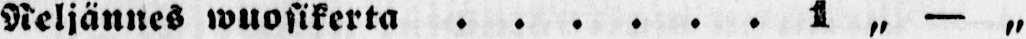Neljännes wuosikerta 1 „ — „
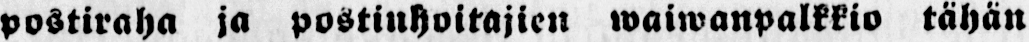postiraha ja postinhoitajien waiwanpalkkio tähän
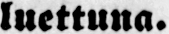luettuna.
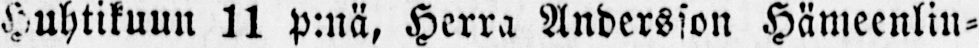Huhtikuun 11 p:nä, Herra Andersson Hämeenlin-
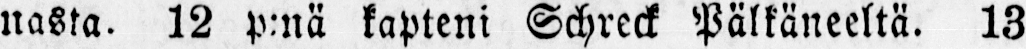nasta. 12 p:nä kapteni Schreck Pälkäneeltä. 13
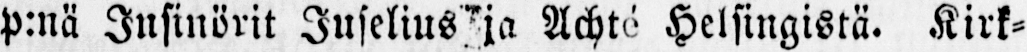p:nä Insinörit Juselius ja Achté Helsingistä. Kirk-
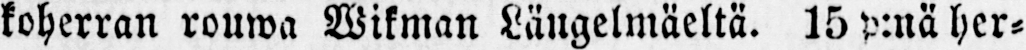koherran rouwa Wikman Längelmäeltä. 15 p:nä her-
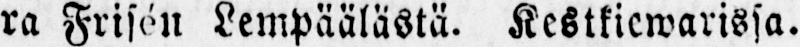ra Frisén Lempäälästä. Kestkiewarissa.
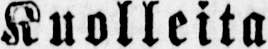Kuolleita.
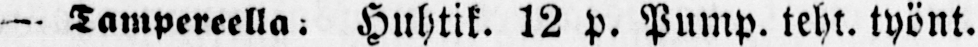— Tampereella; Huhtik. 12 p. Pump. teht. työnt.
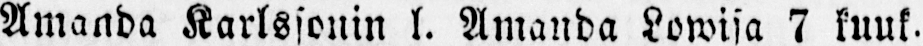Amanda Karlssonin I. Amanda Lowisa 7 kuuk.
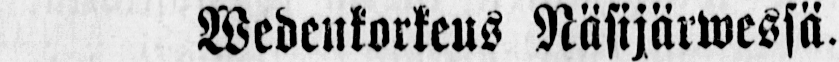Wedenkorkeus Näsijäwessä.
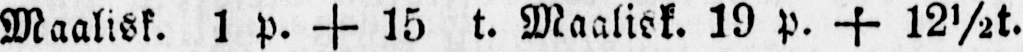Maalisk. 1 P. + 15 t. Maalisk. 19 p. + 12½t.
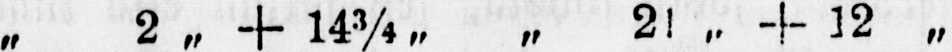„ 2 „ + 14¾ „ „ 21 „ + 12„
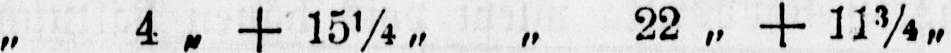„ 4 „ + 15¼„ „ 22 „ + 11¾„
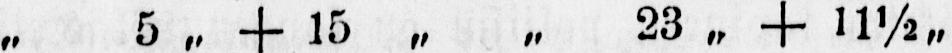„ 5 „ + 15 „ „ 23 „ + 11½„
